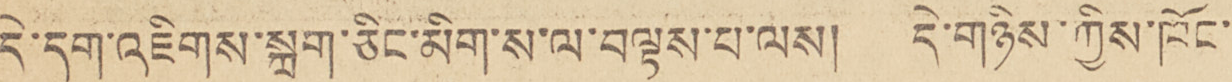དེ་དག་འཇིགས་སྐྲག་ཅིང་མིག་ས་ལ་བལྟས་པ་ལས། དེ་གཉིས་ཀྱིས་ཁོང་
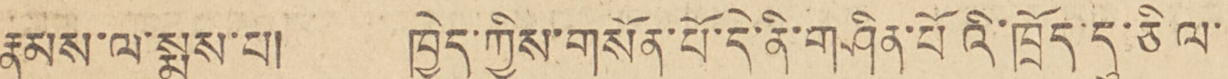རྣམས་ལ་སྨྲས་པ། ཁྱེད་ཀྱིས་གསོན་པོ་དེ་ནི་གཤིན་པོའི་ཁྲོད་དུ་ཅིལ་
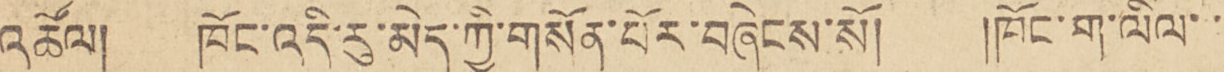འཚོལ། ཁོང་འདི་རུ་མེད་ཀྱི་གསོན་པོར་བཞེངས་སོ། །ཁོང་ག་ལིལ་་
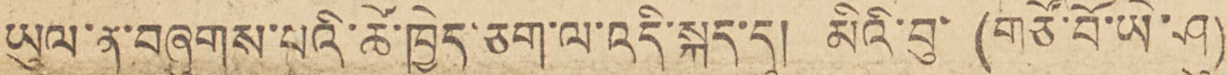ཡུལ་ན་བཞུགས་པའི་ཚེ་ཁྱེད་ཅག་ལ་འདི་སྐད་དུ། མིའི་བུ་ (གཙོ་བོ་ཡེ་ཤུ)
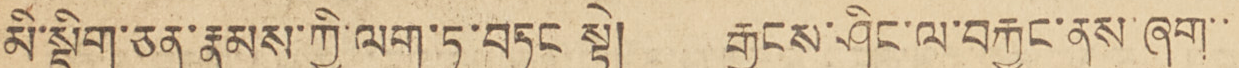མི་སྡིག་ཅན་རྣམས་ཀྱི་ལག་ཏུ་བཏང སྟེ། རྒྱངས་ཤིང་ལ་བརྐྱང་ནས་ཞག་་
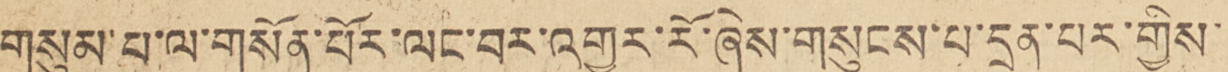གསུམ་པ་ལ་གསོན་པོར་ལང་བར་འགྱུར་རོ་ཞེས་གསུངས་པ་དྲན་པར་གྱིས་
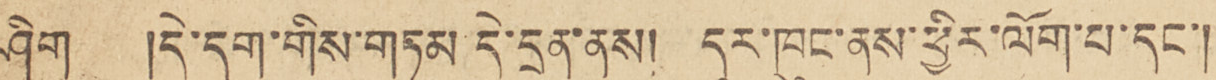ཤིག །དེ་དག་གིས་གཏམ དེ་དྲན་ནས། དུར་ཁུང་ནས་ཕྱིར་ལོག་པ་དང་།
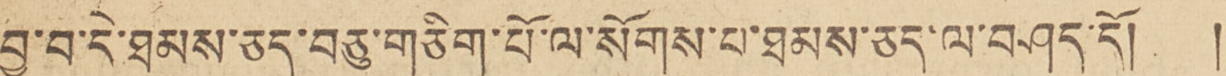བྱ་བ་དེ་ཐམས་ཅད་བཅུ་གཅིག་པོ་ལ་སོགས་པ་ཐམས་ཅད་ལ་བཤད་དོ། །
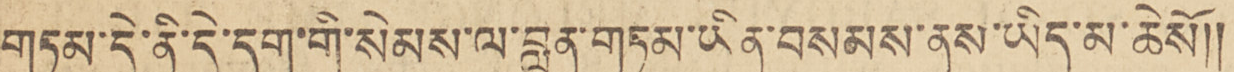གཏམ་ད་ནི་དེ་དག་སེམས་ལ་བླུན་གཏམ་ཡིན་བསམས་ན་སྱིད་མ་ཆེསོ།།
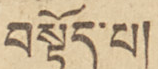བསྟོད་པ།
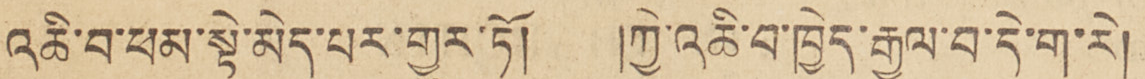འཆི་བ་ཕམ་སྟེ་མེད་པར་གྱུར་ཏོ། །ཀྱེ་འཆི་བ་ཁྱེད་རྒྱལ་བ་དེ་ག་རེ།
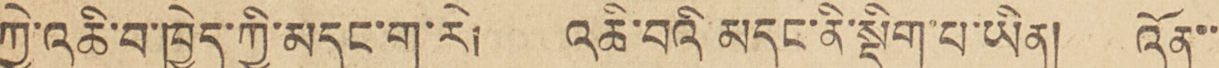ཀྱེ་འཆི་བ་ཁྱེད་ཀྱི་མདུང་ག་རེ། འཆི་བའི་མདུང་ནི་སྡིག་པ་ཡིན། འོན་་
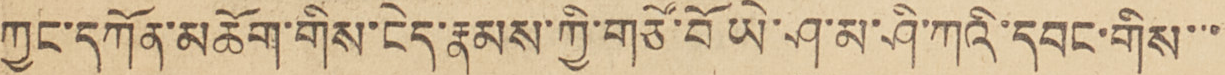ཀྱང་དཀོན་མཆོག་གིས་ངེད་རྣམས་ཀྱི་གཙོ་བོ་ཡེ་ཤུ་མ་ཤི་ཀའི་དབང་གིས་་་
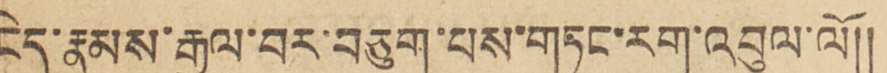ངེད་རྣམས་རྒྱལ་བར་བཅུག་པས་གཏང་རག་འབུལ་ལོ།།
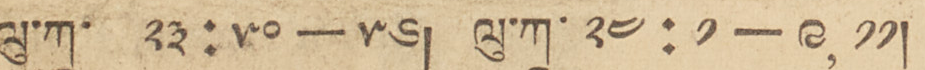ལུ་ཀཱ་ ༢༣ : ༥༠ — ༥༦། ལུ་ཀཱ་ ༢༤ : ༡ — ༩, ༡༡།
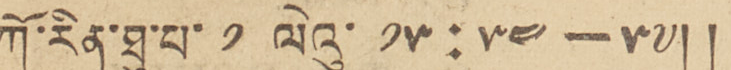ཀོ་རིན་ཐུ་པ་ ༡ ལེའུ་ ༡༥ : ༥༤ — ༥༧། །
